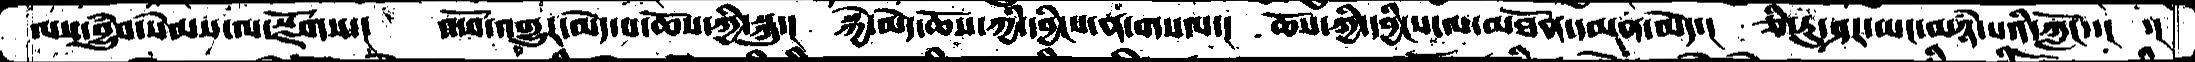ལས་བྱུཾབ་སེམས་ལ་སྫོགས་།  འཕོ་འགྱུར་མེད་པ་ཆོས་ཀྱི་སྐུ་།  སྐྱེ་མེད་ཆོས་ཀྱི་དབྱིངས་ན་གསལ་།  ཆོས་ཀྱི་དབྱིངས་ལ་མཐོན་དམན་མེད་།  ཅི་རུ་ཤར་ཡང་མཉཾ་པའི་ཀློང་་།  ་།
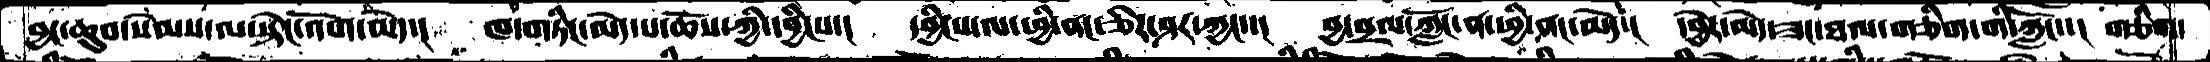བྱང་ཆུབ་སེམས་ལ་སྟེང་འོག་མེད་།  ཁ་གཏིང་མེད་པ་ཆོས་ཀྱི་དབྱིངས་།  དབྱིངས་ལ་ཕྱི་ནང་ཅིར་ཤར་ཀྱང་་།  བྱ་བྲལ་ཀློང་ན་ཕྱི་ནང་མེད་།  དབྱེར་མེད་ཟང་ཐལ་གཅིག་གི་ཀློང་་།  གཅིག་
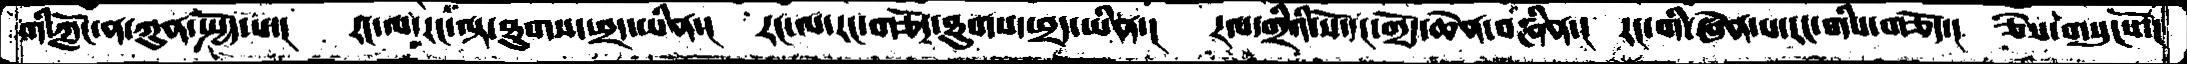གི་ཀློང་ན་ཀུན་སྤྱོད་པ་།  རང་ལ་རང་ལྟ་ཐུགས་ཕྲད་ཡིན་།  རང་ལ་རང་གཅོད་ཐུགས་ཕྲད་ཡིན་།  རལ་གྲིའི་སོ་དང་གྲོད་ཆེན་བཞིན་།  རང་གི་ཞེན་པ་རང་གིས་གཅོད་།  ཅེས་གསུངསོ་།
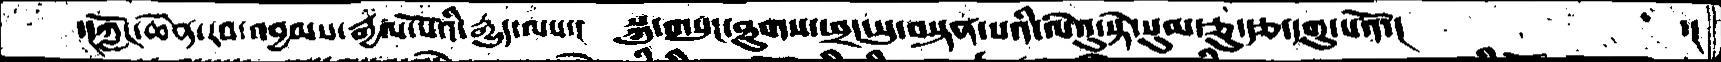་།ཀློང་ཆེན་རབ་འབྱམས་རྒྱལ་པོའི་རྒྱུད་ལས་།   སྐུ་གསུང་ཐུགས་ཕྲད་སུ་བསྟན་པའི་ལེའུ་སྟེ་སུམ་ཅུ་རྩ་དགུ་པའོ་།          ་།
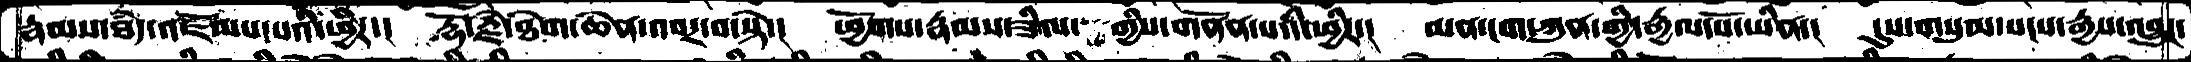རྣམས་ཐཾད་འཇོམས་པའི་ཕྱིར་།   རྡོ་རྗེ་ཐེག་ཆེན་འབར་བ་སྟེ་།  ཕྱོགས་རྣམས་ཟིལ་གྱིས་གནོན་པའི་ཕྱིར་།  མན་ངག་ཀུན་གྱི་རྒྱལ་པོ་ཡིན་།  དུས་གསུམ་སངས་རྒྱས་འབྱུང་
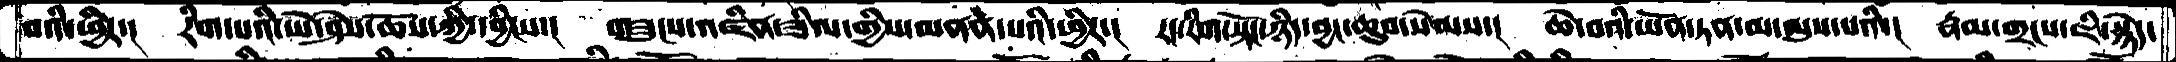པའི་ཕྱིར་།  རིག་པའི་ཡེ་ཤེས་ཆོས་ཀྱི་དབྱིངས་།  གཟུངས་འཛིན་ཟིལ་གྱིས་མནན་པའི་ཕྱིར་།  རང་རིག་སྟོང་ཉིད་བྱང་ཆུབ་སེམས་།  ཆེ་བའི་ཡོན་ཏན་མ་ལུས་པའི་།  རྣམ་གྲངས་ཇི་སྙེད་
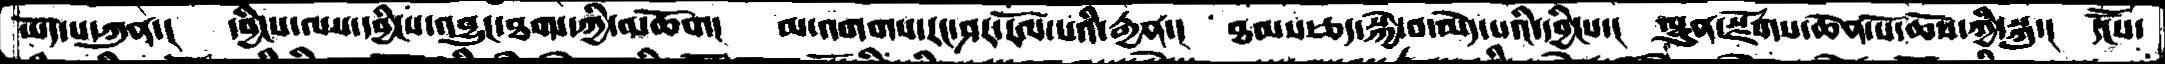ཡོད་པ་ཀུན་།  དབྱིངས་ལས་དབྱིངས་འབྱུང་ཐག་ཀྱི་མཆོག།  མ་འགགས་རང་ཤར་རོལ་པའི་རྒྱན་།  ཐམས་ཅད་སྐྱེ་བ་མེད་པའི་དབྱིངས་།  ལྷུན་སྫོགས་ཆེན་པོ་ཆོས་ཀྱི་སྐུ་།  དངོོས་
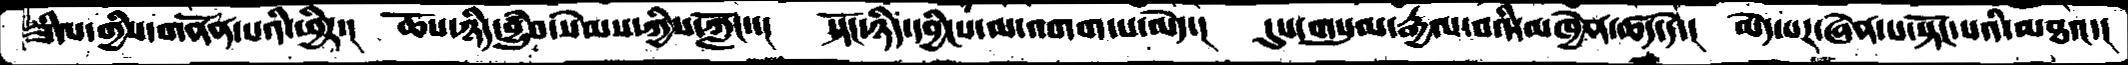ཟིལ་གྱིས་གནོན་པའི་ཕྱིར་།  ཆོས་ཉིད་བྱུཾབ་སེམས་ཀྱིས་ཀློང་་།  སྟོང་ཉིད་དབྱིངས་ལ་འགག་པ་མེད་།  དུས་གསུམ་རྒྱལ་བའི་མཁྱེན་ཚད་དེ་།  མེད་པར་ཞེན་པ་སྟོང་པའི་མཐའ་།
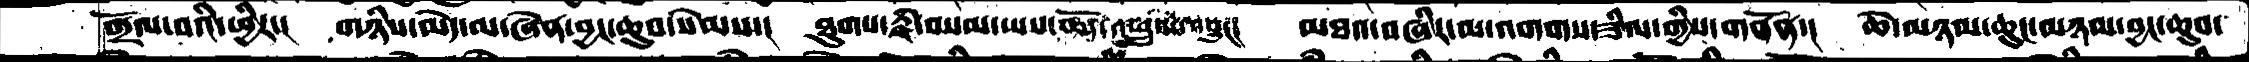གྲོལ་བའི་ཕྱིར་།  གཉིས་མེད་མ་ཞེན་བྱང་ཆུབ་སེམས་།  ཐུགས་རྗེ་བསམ་ཡས་ཆོད་འཕྲུལ་འབྱུང་།  མཐའ་བཞིར་མ་འགགས་ཟིལ་གྱིས་གནོན་།  ཆེ་མཉམ་ཆུང་མཉམ་བྱང་ཆུབ་
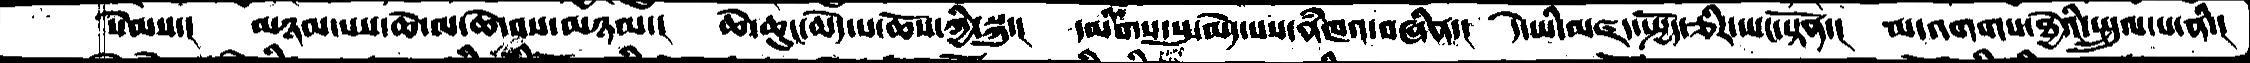སེམས་།  མཉམ་པས་ཆེ་ལ་ཆེ་བས་མཉམ་།  ཆེ་ཆུང་མེད་པ་ཆོས་ཀྱི་སྐུ་།  དམིགས་སུ་མེད་པས་ནཾཁའ་བཞིན་།  དེ་ཡི་མཛད་སྤྱོད་ཅིར་ཡང་སྟོན་།  མ་འགགས་ཐྱེའི་སྤྲུལ་པ་ནི་།
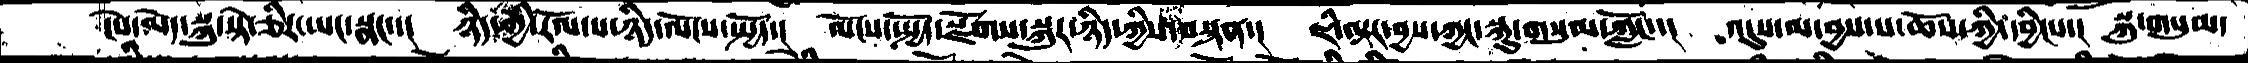ངེས་མེད་སྐུ་སྟེ་ཅིར་ཡང་སྣང་་།   ཉིད་ཀྱི་རོལ་པ་ཉིད་ལོངས་སྤྱོད་།  ལོངས་སྤྱོད་སྫོགས་སྐུར་ཉིད་ཀྱིས་བསྟན་།  ཇི་ལྟར་བྱས་ཀྱང་སྐུ་གསུམ་ཀློང་་།  འདུས་མ་བྱས་པ་ཆོས་ཀྱི་དབྱིངས་།  སྐུ་གསུམ་
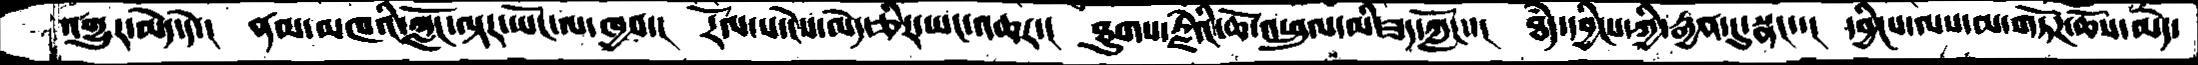འགྱུར་མེད་དེ་།  ནམ་མཁའི་ཀློང་ལྟར་ཡོང་ལ་ཁྱབ་།  རོལ་པ་ངེས་མེད་ཅིར་ཡང་འཆར་།  ཐུགས་རྗེའི་ཆོ་འཕྲུལ་མི་ཟད་ཀློང་་།  ཐཾད་དབྱིངས་ཀྱི་རྒྱན་དུ་སྣང་་།  དབྱིངས་ལས་མ་གཏོཌ་ཆོས་མེད་
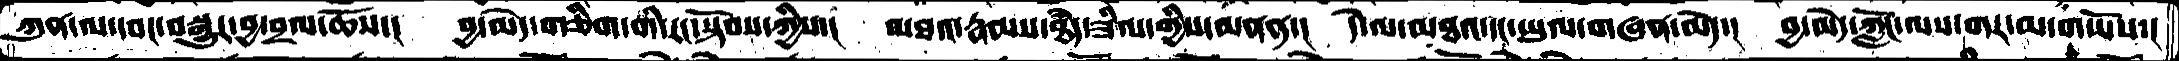ཀུན་ལ་དབང་བསྒྱུར་བྱ་བྲལ་ཆོས་།  བྱ་མེད་གཅིག་གི་རང་སྟོབས་ཀྱིས་།  མཐའ་རྣམས་ཐཾད་ཟིལ་གྱིས་མནན་།  དེ་ལ་མཐའ་དང་ཡུལ་གཞན་མེད་།  བྱ་མེད་ཀློང་ལས་གར་མ་གཡོས་།
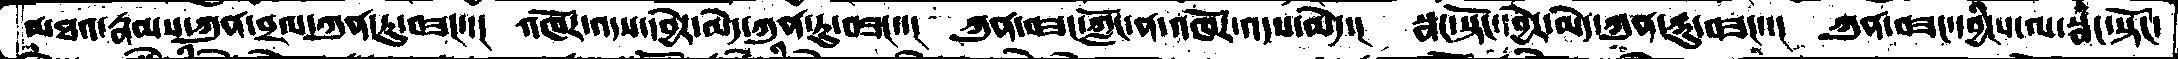མཐའ་རྣམས་ཀུན་བྲལ་ཀུན་ཏུ་བཟང་་།  འཁོར་འདས་དབྱེར་མེད་ཀུན་ཏུ་བཟང་་།  ཀུན་བཟང་ཀློང་ན་འཁོར་འདས་མེད་།  སྣང་སྟོང་དབྱེར་མེད་ཀུན་ཏུ་བཟང་་།  ཀུན་བཟང་དབྱིངས་ལ་སྣང་སྟོང་
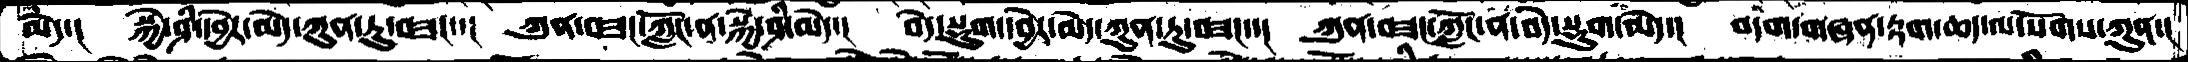མེད་།  སྐྱེ་ཤི་དབྱེར་མེད་ཀུན་ཏུ་བཟང་་།  ཀུན་བཟང་ཀློང་ན་སྐྱེ་ཤི་མེད་།  བདེ་སྡུག་དབྱེར་མེད་ཀུན་ཏུ་བཟང་་།  ཀུན་བཟང་ཀློང་ན་བདེ་སྡུག་མེད་།  བདག་གཞན་རྟག་ཆད་ལ་སོགས་ཀུན་།
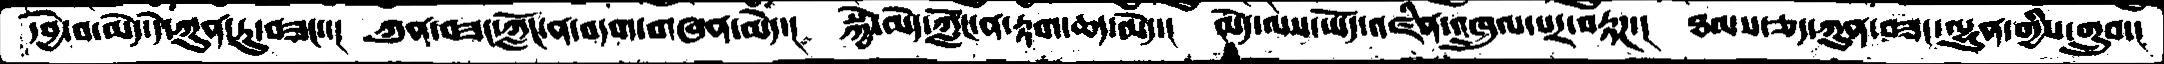དབྱེ་བ་མེད་དེ་ཀུན་ཏུ་བཟང་་།  ཀུན་བཟང་ཀློང་ན་བདག་གཞན་མེད་།  སྐྱེ་མེད་ཀློང་ན་རྟག་ཆད་མེད་།  མེད་ལས་ཡོད་འཛིན་འཁྲུལ་པར་བརྟཌ་།  ཐམས་ཅད་ཀུན་བཟང་ལྷུན་གྱིས་གྲུབ་།
